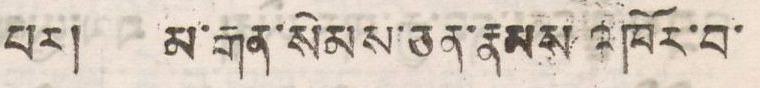པར། མ་རྒན་སེམས་ཅན་རྣམས་འཁོར་བ་
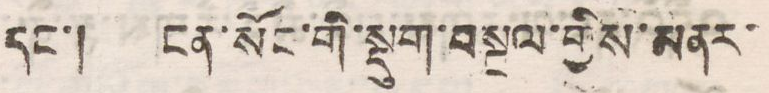དང་།   ངན་སོང་གི་སྡུག་བསྔལ་གྱིས་མནར་
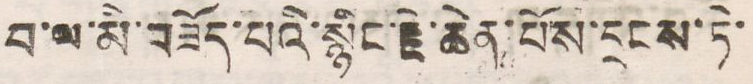བ་ལ་མི་བཟོད་པའི་སྙིང་རྗེ་ཆེན་པོས་དྲངས་ཏེ་
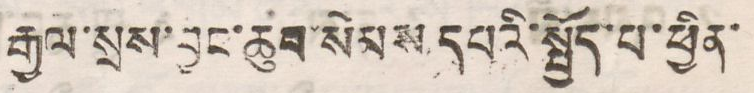རྒྱལ་སྲས་བྱུང་ཆུབ་སེམས དཔའི་སྤྱོད་པ་ཕྱིན་
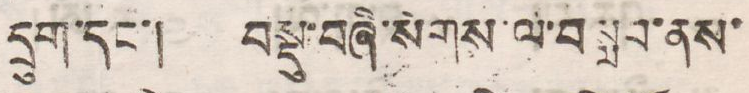དྲུག་དང་། བསྡུ་བཞི་སོགས་ལ་བསླབ་ནས་
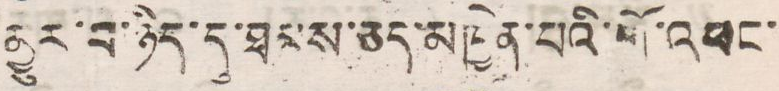མྱུར་བ་ཉིད་དུ་ཐམས་ཅད་མཁྱེན་པའི་གོ་འཕང་
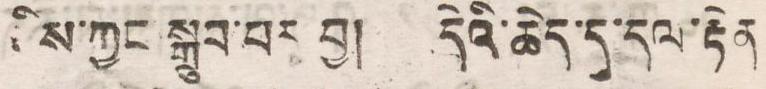ཅིས་ཀྱང སྒྲུབ་པར བྱ། དེའི་ཆེད་དུ་དལ་རྟེན
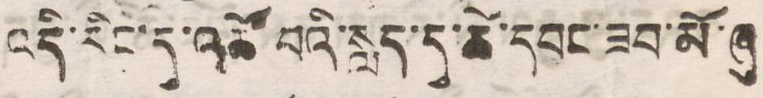འདི་རིང་དུ་འཚོ་བའི་སླད་དུ་ཚེ་དབང་ཟབ་མོ་ཞུ་
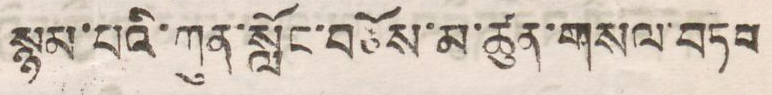སྙམ་པའི་ཀུན་སློང་བཅོས་མ་ཚུན་གསལ་བཏབ
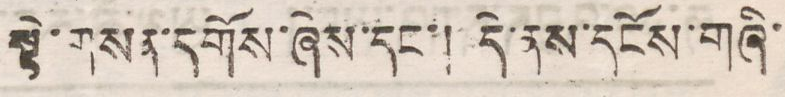སྟེ་གསན་དགོས་ཞེས་དང་། དེ་ནས་དངོས་གཞི་
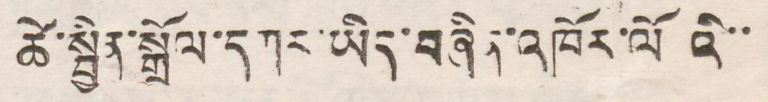ཚེ་སྦྱིན་སྒྲོལ་དཀར་ཡིད་བཞིན་འཁོར་ལོའི་་
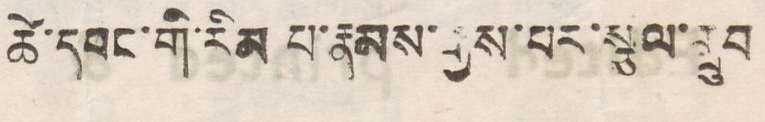ཚེ་དབང་གི་རིམ་པ་རྣམས་རྒྱས་པར་སྩལ་གྲུབ
